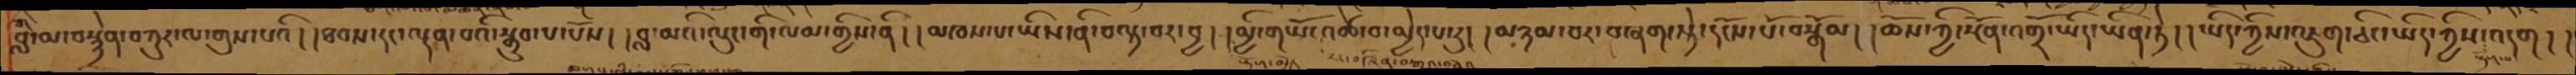བླ་མ་བསྙེན་བཀུར་ལ་གུས་པའི། །ཐབས་དང་ལྡན་པའི་སྒྲུབ་པ་པོས། །བླ་མའི་ལུང་གི་ལམ་གྱིས་ནི། །མཁས་པ་ཡིས་ནི་བལྟ་བར་བྱ། །མྱི་གཡོ་འཚེ་བ་མྱེད་པ་རུ། །མཉམ་བར་བཞག་སྟེ་དངོས་པོ་བསྒོམ། །ཆོས་ཀྱི་སྔོན་འགྲོ་ཡིད་ཡིན་ཏེ། །ཡིད་ཀྱིས་འཇུག་ཅིང་ཡིད་ཀྱིས་འདུག། །
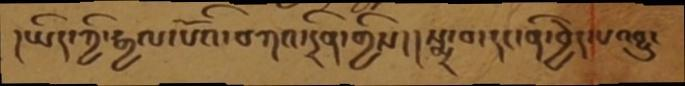།ཡིད་ཀྱི་རྒྱལ་པོའི་བཀའ་དྲིན་གྱིས།། སྨྲ་བ་དང་ནི་བྱེད་པ་འབྱུང
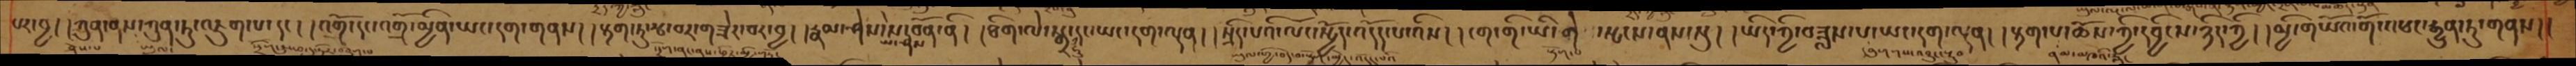པར་བྱ། །ཀུན་ནས་ཀུན་ཏུ་འཇུག་པ་དང། །འགྲོ་དང་འགྲོ་མྱིན་ཡང་དག་གནས། །རྟག་ཏུ་རྩ་བར་གཟེར་བར་བྱ། །རྣམ་ཤེས་ཡེ་ཤེས་ས་བོན་ནི། །ཐིག་ལེ་སྒྲ་དང་ཡང་དག་ལྡན། །སྲིད་པའི་ལོང་སྤྱོད་འདོད་པ་འིས། །ངག་གི་ཡི་གེ་སྤངས་ནས་སུ། །ཡིད་ཀྱི་བཟླས་པ་ཡང་དག་ལྡན། །རྟག་པ་ཆོས་ཀྱི་དབྱིངས་ཉིད་ཀྱི། །མྱི་གཡོའ་གོ་འཕང་རྒྱུན་ཏུ་གནས། །
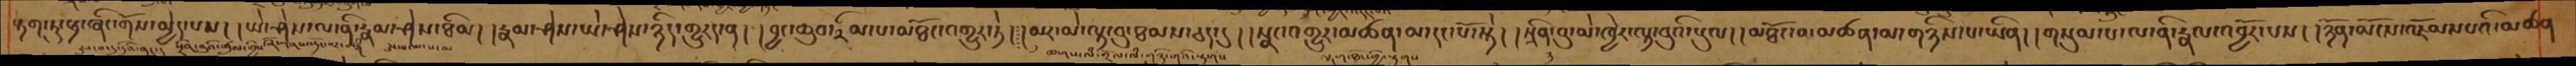རྟག་ཏུ་ཕྲ་ཞིང་གོས་མྱེད་པས། །ཡེ་ཤེས་ལ་ནི་རྣམ་ཤེས་ཐིམ། །རྣམ་ཤེས་ཡེ་ཤེས་ཉིད་གྱུརད་ན། །བྱང་ཆུབ་རིམ་པ་མཐོང་འགྱུར་ཏེ། །མར་མེ་ལྟ་བུ་ཐམས་ཅད་དུ། །སྣང་འགྱུར་མཚན་མ་དང་པོ་སྟེ། །སྲིན་བུ་མེ་ཁྱེར་ལྟ་བུའི་སུལ། །མཐོང་བ་མཚན་མ་གཉིས་པ་ཡིན། །གསུམ་པ་ལ་ནི་རྣལ་འབྱོར་པས། །ཉོན་མོངས་འཇོམས་པའི་མཚན
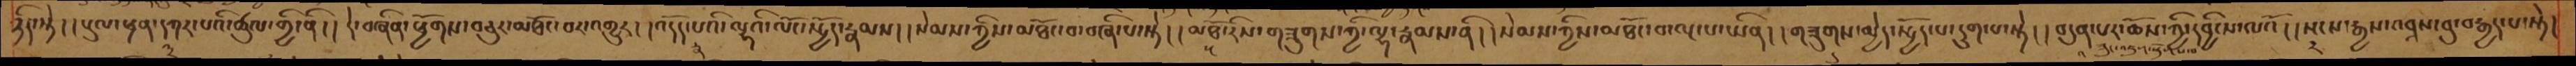ཉིད་སྟེ། །རྡུལ་ཕྲན་དཀར་པའི་ཚུལ་གྱི་ནི། །དེ་བཞིན་ཕྱོགས་བཅུར་མཐོང་བར་འགྱུར། །འདོད་པའི་ལྷའི་ལོང་སྤྱོད་རྣམས། །སེམས་ཀྱིས་མཐོང་བ་བཞི་པ་སྟེ། །མཐོ་རིས་གཟུགས་ཀྱི་ལྷ་རྣམས་ནི། །སེམས་ཀྱིས་མཐོང་བ་ལྔ་པ་ཡིན། །གཟུགས་མྱེད་སྤྱོད་པ་དྲུག་པ་སྟེ། །བདུན་པར་ཆོས་ཀྱི་དབྱིངས་ལའོ། །སངས་རྒྱས་འབྲས་བུ་བརྒྱད་པ་སྟེ།
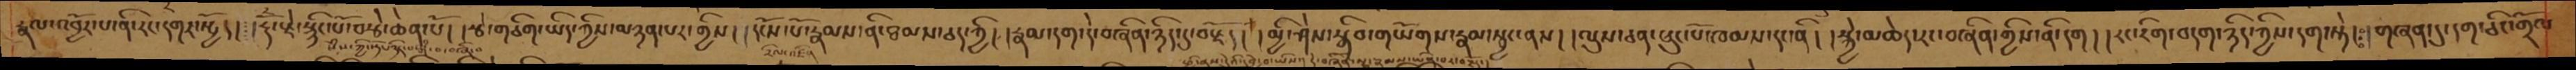རྣལ་འབྱོར་པ་ནི་རང་དགར་སྤྱོད། །རྡོ་རྗེ་སྙིང་པོ་བརྩེ་ཆེན་པོ། །རྩེ་གཅིག་ཡིད་ཀྱིས་མཉན་པར་གྱིས། །དངོས་པོ་རྣམས་ནི་ཐམས་ཅད་ཀྱི། །རྣམ་དག་དེ་བཞིན་ཉིད་དུ་བརྗོད། །མྱི་ཤེས་སྒྲིབ་གཡོག་རྣམ་སྦྱང་ནས། །ལུས་ཅན་ཕུང་པོ་ཁམས་དང་ནི། །སྐྱེ་མཆེད་རང་བཞིན་གྱིས་ནི་དག། །རང་རིག་བདག་ཉིད་ཀྱིས་དག་སྟེ། །གཞན་དུ་དག་ཅིང་གྲོལ
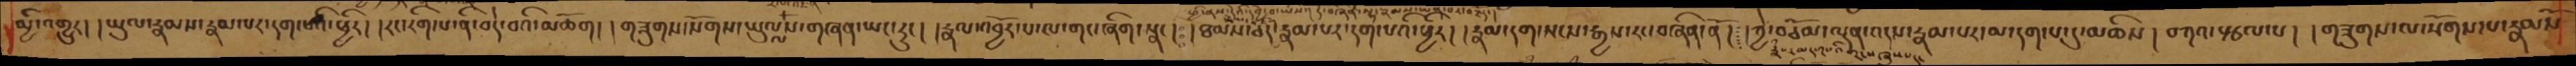མྱི་འགྱུར། །ཡུལ་རྣམས་རྣམ་པར་དག་པའི་ཕྱིར། །རང་རིག་པ་ནི་བདེ་བའི་མཆོག། །གཟུགས་སོགས་ཡུལ་ལས་གཞན་ཡང་རུང། །རྣལ་འབྱོར་པ་ལ་གང་ཞིག་སྣང། །ཐམས་ཅད་རྣམ་པར་དག་པའི་ཕྱིར། །རྣམ་དག་སངས་རྒྱས་རང་བཞིན་ནོ། །ཀྱེ་བཅོམ་ལྡན་འདས་རྣམ་པར་མ་དག་པ་དུ་མཆིས། །བཀའ་སྩལ་པ། །གཟུགས་ལ་སོགས་པ་རྣམསོ
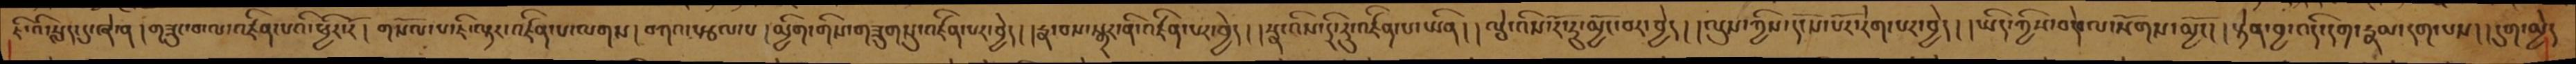ཇི་འི་སླད་དུ་ཞེ་ན། གཟུང་བ་ལ་འཛིན་པའི་ཕྱིར་རོ། གསོལ་པ་ཇི་ལྟར་འཛིན་པ་ལགས། བཀའ་སྩལ་པ། མྱིག་གིས་གཟུགསུ་འཛིན་པར་བྱེད། །རྣ་བས་སྒྲར་ནི་འཛིན་པར་བྱེད། །སྣ་འིས་དྲི་རུ་འཛིན་པ་ཡིན། །ལྕེ་འིས་རོ་རུ་མྱོང་བར་བྱེད། །ལུས་ཀྱིས་དངོས་པོར་རེག་པར་བྱེད། །ཡིད་ཀྱིས་བདེ་བལ་སོགས་མྱོང། །སྟེན་བྱ་འདི་དག་རྣམ་དག་པ། །དུག་མྱེད
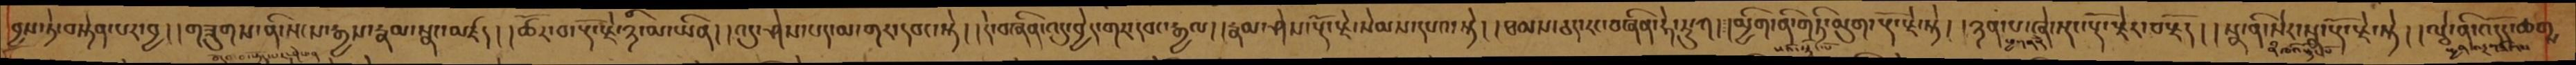བྱས་ཏེ་བསྟེན་པར་བྱ། །གཟུགས་ནི་སངས་རྒྱས་རྣམ་སྣང་མཛད། །ཚོར་བ་རྡོ་རྗེ་ཉི་མ་ཡིན། །འདུ་ཤེས་པད་མ་གར་དབང་སྟེ། །དེ་བཞིན་འདུ་བྱེད་གར་དབང་རྒྱལ། །རྣམ་ཤེས་རྡོ་རྗེ་སེམས་དཔའ་སྟེ། །ཐམས་ཅད་རང་བཞིན་ཧེ་རུ་ཀ།༴།མྱིག་ནི་གཏི་མུག་རྡོ་རྗེ་སྟེ། །ཉན་པ་ཞེ་སྡང་རྡོ་རྗེ་བརྗོད། །སྣ་ནི་སེར་སྣ་རྡོ་རྗེ་སྟེ། །ལྕེ་ནི་འདོད་ཆགས
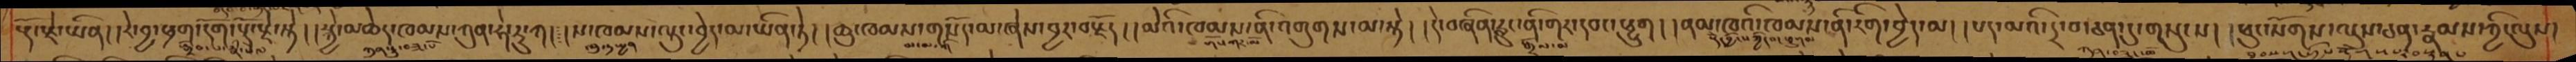རྡོ་རྗེ་ཡིན། །རེ་བྱ་ཕྲག་དོག་རྡོ་རྗེ་སྟེ ། །སྐྱེ་མཆེད་ཁམས་ཀུན་ཧེ་རུ་ཀ།༴།ས་ཁམས་ལྟུང་བྱེད་མ་ཡིན་ཏེ། །ཆུ་ཁམས་གསོད་མ་ཞེས་བྱར་བརྗོད། །མེའི་ཁམས་ནི་འགུགས་མ་སྟེ། །དེ་བཞིན་རླུང་ནི་གར་དབང་ཕྱུག། །ནམ་ཁའི་ཁམས་ནི་རིག་བྱེད་མ། །པད་མའི་དྲ་བ་ཅན་གསུངས། །ཕུང་སོགས་འདུས་ཅན་རྣམས་ཀྱི་ལུས།
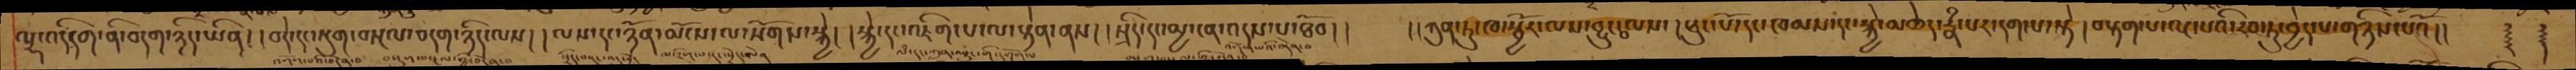ལྷ་འདིདག་ནི་བདག་ཉིད་ཡིན། །བདེ་དང་སྡུག་བསྔལ་བདག་ཉིད་ལས། །ལས་དང་ཉོན་མོངས་ལ་སོགས་སྐྱེ། །སྐྱེ་དང་འཇིག་པ་ལ་སྟེན་ནས། །སྲིད་དང་མྱ་ངན་འདས་པ་ཐོབ།།    །།ཀུན་ཏུ་ཁ་སྦྱོར་ལས་བྱུང་བ་ལས་ །ཕུང་པོ་དང་ཁམས་དང་སྐྱེ་མཆེད་རྣཾ་པར་དག་པ་སྟེ ། བརྟག་པ་ལྔ་པའི་རབ་ཏུ་བྱེད་པ་གཉིས་པའོ།།   ༈ ༈
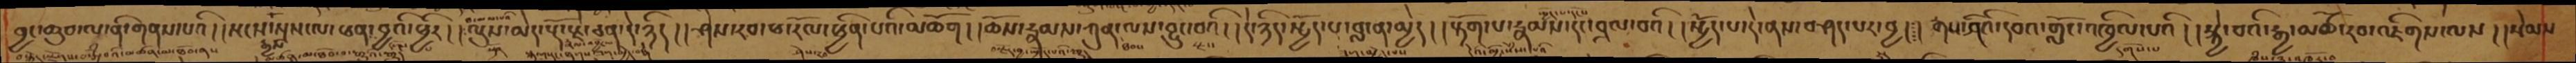བྱང་ཆུབ་ལ་ནི་གནས་པའི། །སངས་རྒྱས་སྲས་ལ་ཕན་བྱའི་ཕྱིར ། །ལུས་མེད་རྡོ་རྗེ་ཅན་དེ་ཉིད ། །ཤེས་རབ་ཕ་རོལ་ཕྱིན་པའི་མཆོག། །ཆོས་རྣམས་ཀུན་ལས་བྱུང་བའི། །དེ་ཉིད་སྤྱོད་པ་བླ་ན་མྱེད། །རྟོག་པ་རྣམས་དང་བྲལ་བའི། །སྤྱོད་པ་དེ་ནས་བཤད་པར་བྱ།༴། རྒས་ཤིའི་དབའ་གློང་འཁྱིལ་པའི། །སྐྱེ་བའི་རྒྱ་མཚོ་རབ་འཇིགས་ལས།།སེམས
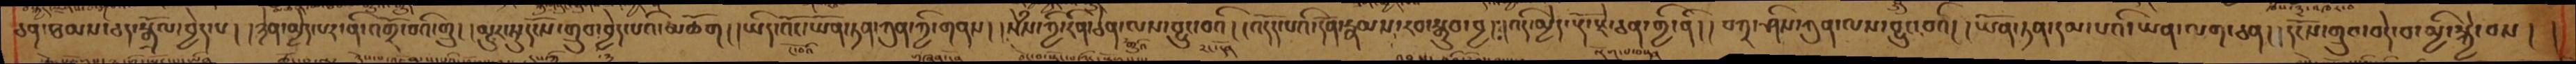ཅན་ཐམས་ཅད་སྒྲོལ་བྱེད་པ། །ཉེན་མྱེད་པར་ནི་འགྲོ་བའི་གྲུ། །མྱུར་ཏུ་དངོས་གྲུབ་བྱེད་པའི་མཆོག། །ཡིད་འོང་ཡོན་ཏན་ཀུན་ཀྱི་གནས། །སེཾས་ཀྱི་རིན་ཅེན་ལས་བྱུང་བའི། །འདོད་པའི་དོན་རྣམས་རབ་སྒྲུབ་བྱ། ༴ །འདི་མྱེད་རྡོ་རྗེ་ཅན་གྱི་ནི། །བཀྲ་ཤིས་ཀུན་ལས་བྱུང་བའི། །ཡོན་ཏན་དམ་པའི་ཡན་ལག་ཅན། །དངོས་གྲུབ་བདེ་བ་མྱི་སྐྱེ་བས། །
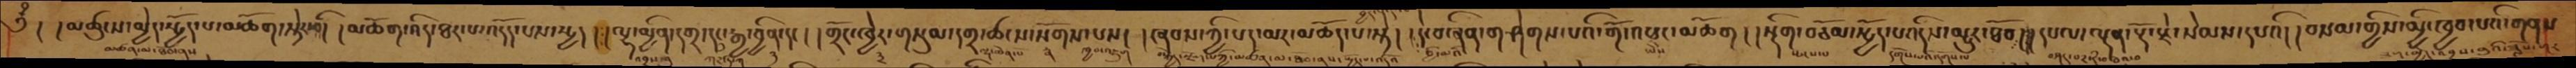༅ྃ། །མཚུངས་མྱེད་སྤྱོད་པ་མཆོག་སྟེར་བའི། །མཆོག་འདི་ཐར་པ་འདོད་པས་སྤྱད།༴།ལྷ་མིན་དགྲ་དང་བརྒྱ་བྱིན་དང། །གྲོང་ཁྱེར་གསུམ་དགྲ་ཚངས་སོགས་པས། །ཞབས་ཀྱི་པད་མར་མཆོད་པ་སྟེ། །དེ་བཞིན་གཤེགས་པའི་གོ་འཕང་མཆོག། །སྡིག་བཅོམ་སྤྱོད་པའདིས་མྱུར་ཐོབ།༴།དཔལ་ལྡན་རྡོ་རྗེ་སེམས་དཔའི། །བསམ་གྱིས་མྱི་ཁྱབ་པའི་གནས
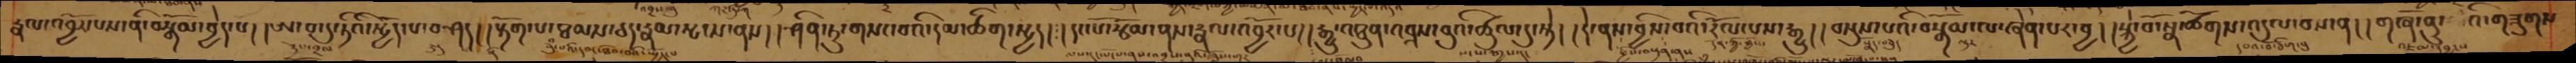རྣལ་འབྱོར་པས་ནི་བསྒོམ་བྱེད་པ། །ཨ་བ་དུ་ཏིའི་སྤྱོད་པ་བཤད། །རྟོག་པ་ཐམས་ཅད་རྣམ་སྤངས་ནས། །ཤིན་ཏུ་གསང་བའི་དམ་ཚིག་སྤྱད།༴།དང་པོ་རྩོམ་ནས་རྣལ་འབྱོར་པ། །རྒྱུ་འཐུན་འབྲས་བུའི་ཚུལ་དུ་སྟེ། །དེ་ནས་བྱིས་བའི་རོལ་པས་རྒྱུ། །བསྡུས་པའི་བསྒོམ་ལ་ཞེན་པར་བྱ། །སྐྱེ་བོ་སྣ་ཚོགས་འདུལ་བས་ན། གཞོན་ནུ་མའི་གཟུགས
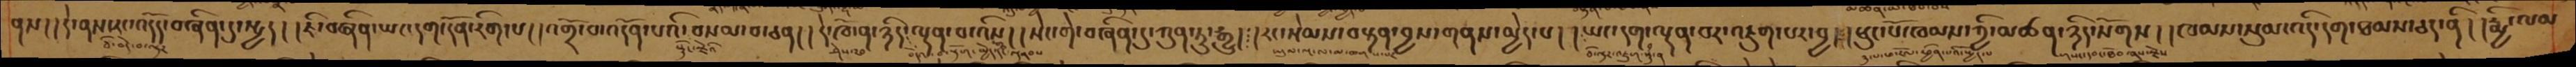ནས། །དེ་ནས་རང་འདོད་བཞིན་དུ་སྤྱད། །ཇི་བཞིན་ཡང་དག་དོན་རིག་པ། །འགྲོ་བ་འདོན་པའི་བསམ་བ་ཅན། །དེ་ཁོ་ན་ཉིད་ལྡན་བ་འིས། །སེང་གེ་བཞིན་དུ་ཀུན་ཏུ་རྒྱུ། །རང་སེམས་བསྟན་བྱས་གནས་མྱེད་པ། །ཡང་དག་ལྡན་བར་འཇུག་པར་བྱ། ༴ །ཕུང་པོ་ཁམས་ཀྱི་མཚན་ཉིད་སོགས། །ཁམས་སུམ་འདི་དག་ཐམས་ཅད་ནི། །རྨྱི་ལམ
